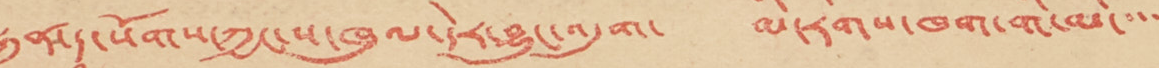རླིད་ཧྲུན་དཱ་སོགས་ཀྱང་ས་ཁུལ་དེར་བྱུང་འདུག་ མི་རིགས་ཁག་གི་མི་་་་
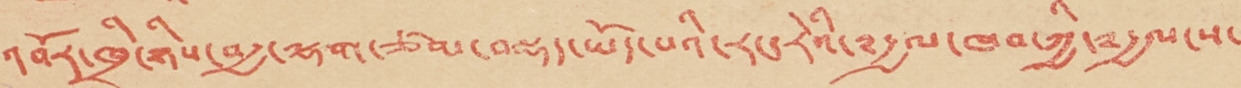འབོར་ཁྲི་ཉིས་བརྒྱ་ལྷག་ཙམ་བསྡད་ཡོད་པའི་རང་རེའི་༸རྒྱལ་ཁབ་ཀྱི་༸རྒྱལ་ས་
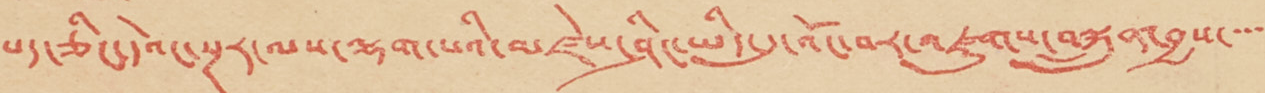པད་ཅིང་དེའང་སྔར་ལས་ལྷག་པའི་མཛེས་ཤིང་ཡིད་དུ་འོང་བར་འཛུགས་བསྐྲུན་བྱས་་་་
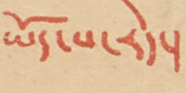ཡོད་པ་རེད་།
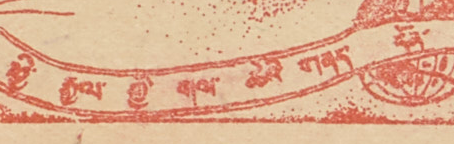ཕྱི་རྒྱལ་གྱི་གལ་ཆེའི་གནད་དོན་
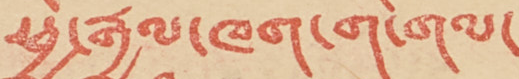ཕྱི་རྒྱལ་ཁག་གི་གལ་
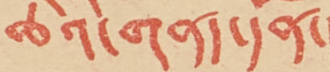ཆེའི་གནད་དོན་།
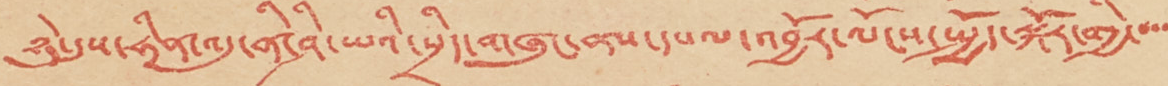• ཉེ་དུས་ཧིན་འདུ་ནི་ཤི་ཡའི་སྲིད་གཞུང་ནས་དཔལ་འབྱོར་ལོངས་སྤྱོད་སྐོར་གྱི་་་་
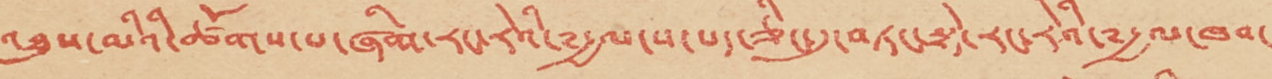འཐུས་མིའི་ཚོགས་པ་ཞིག་རང་རེའི་༸རྒྱལ་ས་པད་ཅིང་དུ་བཏང་སྟེ་རང་རེའི་༸རྒྱལ་ཁབ་
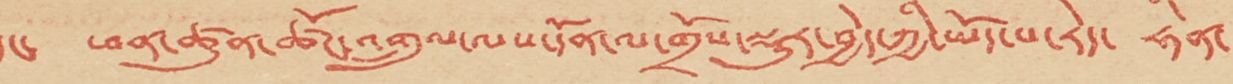དང་ ཕན་ཚུན་ཚོང་འགྲུལ་ལས་དོན་ལ་གྲོས་སྡུར་བྱེད་ཀྱི་ཡོད་པ་རེད་ ཧིན་
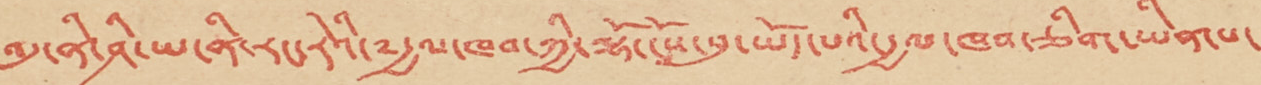འདུ་ནི་ཤི་ཡ་ནི་རང་རེའི་༸རྒྱལ་ཁབ་ཀྱི་ལྷོ་ངོས་སུ་ཡོད་པའི་རྒྱལ་ཁབ་ཅིག་ཡིན་པ་
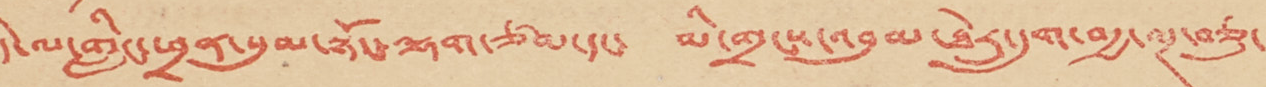དེ་ལ་གླིང་ཕྲན་སུམ་སྟོང་ལྷག་ཙམ་དང་ མི་གྲངས་འབུམ་ཐེར་དྲུག་བརྒྱ་ལྔ་བཅུ་
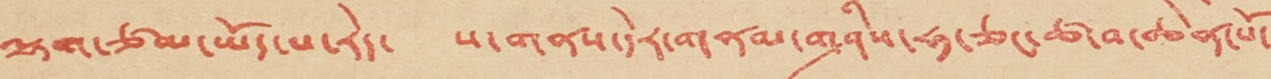ལྷག་ཙམ་ཡོད་པ་རེད་ ས་གནས་དེར་གནམ་གཤིས་ཧ་ཅང་ཚ་བ་ཆེན་པོ་
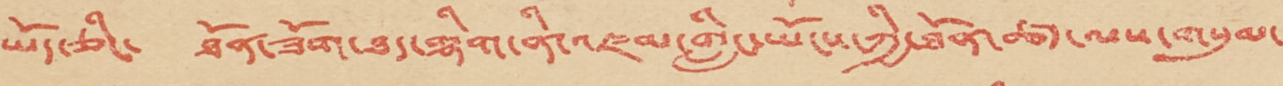ཡོད་ཅིང་ ཐོན་ཟོག་ཐས་གྷིག་ནི་འཛམ་གླིང་ཡོངས་ཀྱི་ཐོན་ཚད་ལས་གསུམ་
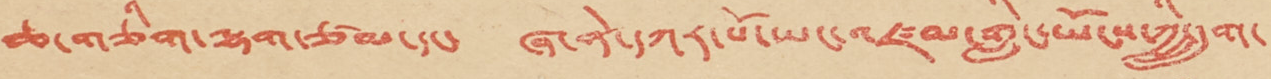ཆ་གཅིག་ལྷགག་ཙམ་དང་ ཞ་ནེ་དཀར་པོ་ཡང་འཛམ་གླིང་ཡོངས་ཀྱི་དྲུག་
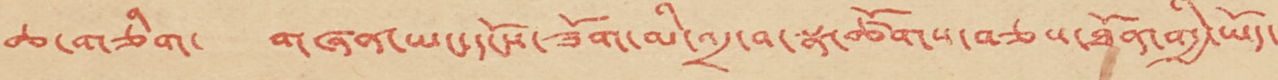ཆ་གཅིག་ གཞན་ཡང་དངོས་ཟོག་མི་འདྲ་བ་སྣ་ཚོགས་བཅས་ཐོན་གྱི་ཡོད་
